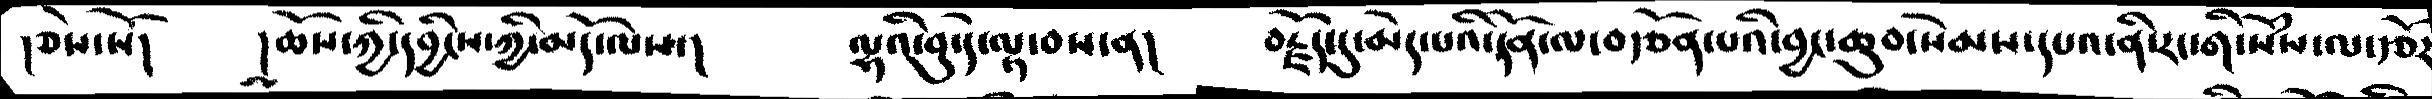།ཅེས་སོ།     །ཆོས་ཀྱི་དབྱིངས་ཀྱི་མདོ་ལས་།     ལྷའི་བུ་དེ་ལྟ་བས་ན།     བརྗོད་དུ་མེད་པའི་དོན་ལ་བརྩོན་པའི་བྱང་ཆུབ་སེམས་དཔའ་ནི་རང་གི་སེཾས་ལ་རྩོར་
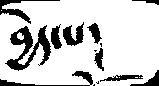བྱེད་པ།
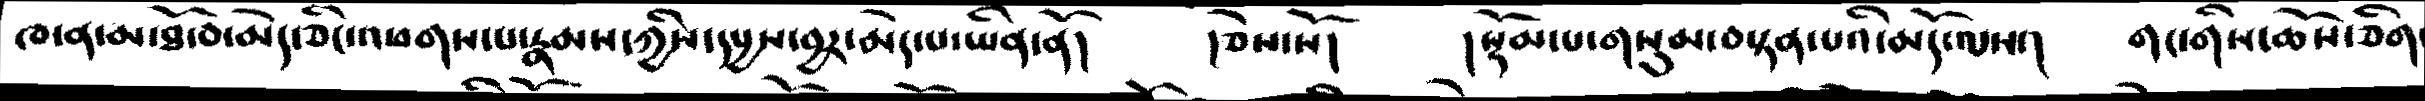ཁ་ན་མ་ཐོ་བ་མེད་ཅིང་འཕགས་པ་རྣམས་ཀྱིས་དཔྱས་བྱར་མེད་པ་ཡིན་ནོ།    །ཅེས་སོ།     །སྡོམ་པ་གསུམ་བསྟན་པའི་མདོ་ལས་།    གང་གིས་ཆོས་ཅིག་
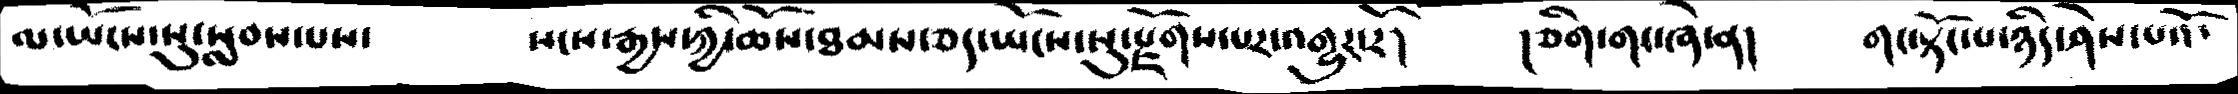ལ་ཡོངས་སུ་སླབས་པས་      སངས་རྒྱས་ཀྱི་ཆོས་ཐམས་ཅད་ཡོངས་སུ་སྫོགས་པར་འགྱུར་རོ།     །ཅིག་གང་ཞེ་ན།     གང་སྟོང་པ་ཉིད་ཤེས་པའོ་
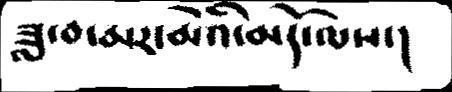ཟླ་བ་མར་མེའི་མདོ་ལས།
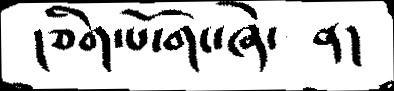།ཅིག་པོ་གང་ཞེ་    ན།
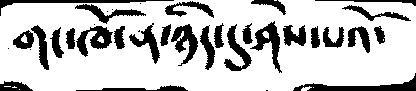གང་ཁོ་ན་ཉིད་དུ་ཤེས་པའོ་
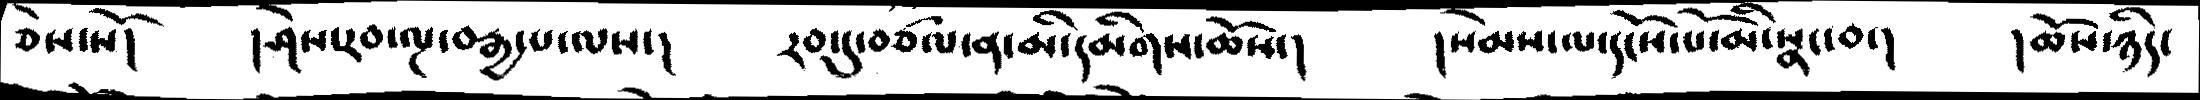ཅེས་སོ།    ། ཤེས་རབ་ལྔ་བརྒྱ་པ་ལས་།      རབ་དུ་བཙལ་ན་མི་དམིགས་ཆོས་།    །སེམས་ལ་དངོས་པོ་མི་སྣང་བ་།    །ཆོས་ཉིད་
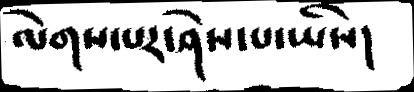ལེགས་པར་ཤེས་པ་ཡིན།
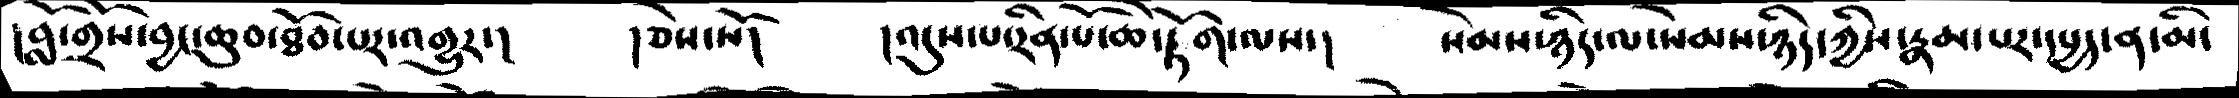།བློ་གྲོས་བྱང་ཆུབ་ཐོབ་པར་འགྱུར་།   །ཅེས་སོ།     །འདུས་པ་རིན་པོ་ཆེ་རྟོག་ལས་།      སེམས་ཉིད་ལ་སེམས་ཀྱིས་རྣམ་པར་དཔྱད་ན་མི་
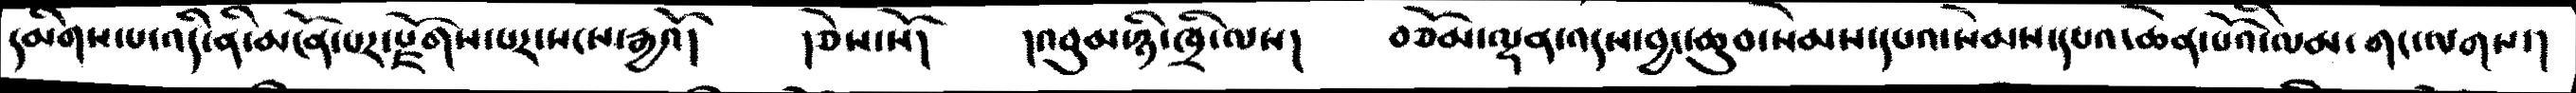དམིགས་པ་འདི་ནི་མངོན་པར་སྫོགས་པར་སངས་རྒྱའོ།  །ཅེས་སོ།     །འབུམ་ཉི་ཁྲི་ལས།    བཅོམ་ལྡན་འདས་བྱང་ཆུབ་སེམས་དཔའ་སེམས་དཔའ་ཆེན་པོའི་ལམ་གང་ལགས་།
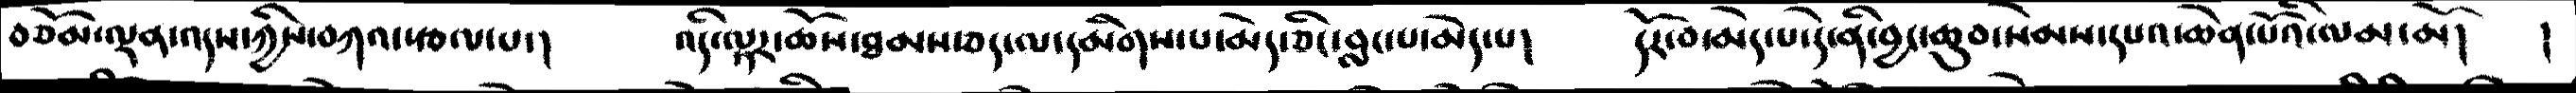བཅོམ་ལྡན་འདས་ཀྱིས་བཀའ་རྩལ་པ་།     འདི་ལྟར་ཆོས་ཐམས་ཅད་ལ་དམིགས་པ་མེད་ཅིང་བླངས་པ་མེད་པ།  དོར་བ་མེད་པ་དེ་ཉིད་བྱང་ཆུབ་སེམས་དཔའ་ཆེན་པོའི་ལམ་མོ།  །
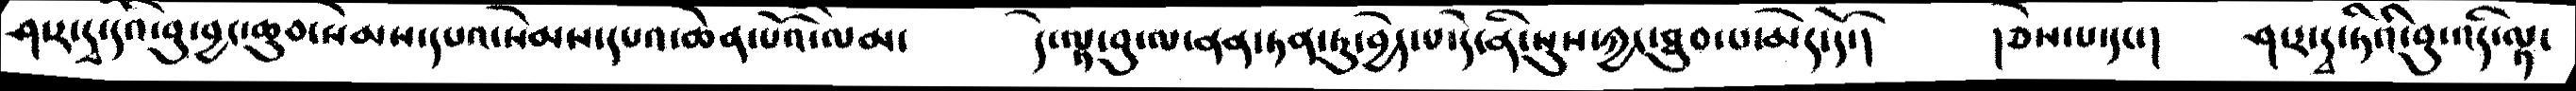ཤ་ར་དྭ་དའི་བུ་བྱང་ཆུབ་སེམས་དཔའ་སེམས་དཔའ་ཆེན་པའོ་ལམ་    དེ་ལྟ་བུ་ལ་ནན་ཏན་ཏུ་བྱེད་པ་དེ་ནི་སུས་ཀྱང་ཐུབ་པ་མེད་དོ་།   །ཅེས་པ་དང་།    ཤ་ར་དྭ་ཏིའི་བུ་འདི་ལྟ་
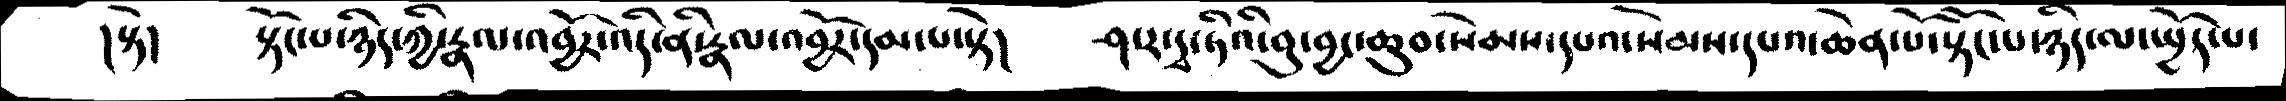།སྟེ།     སྟོང་པ་ཉིད་ཀྱི་རྣལ་འབྱོར་འདི་ནི་རྣལ་འབྱོར་དམ་པ་སྟེ།     ཤ་་་དྭ་ཏིའི་བུ་བྱང་ཆུབ་སེམས་དཔའ་སེམས་དཔའ་ཆེན་པོ་སྟོང་པ་ཉིད་ལ་ཡྱོད་པ་
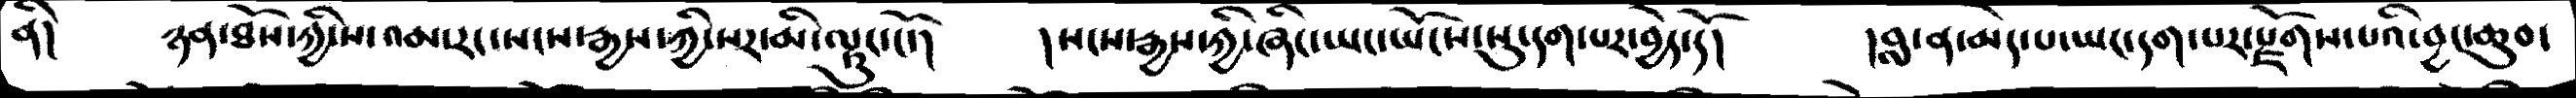ནི།    ཉན་ཐོས་ཀྱི་ས་འམ་རང་སངས་རྒྱས་ཀྱི་སར་མི་ལྟུང་ངོ་།    །སངས་རྒྱས་ཀྱི་ཞིང་ཡང་ཡོངས་སུ་དག་པར་བྱེད་དོ།    །བླ་ན་མེད་པ་ཡང་དག་པར་སྫོགས་པའི་བྱང་ཆུབ་
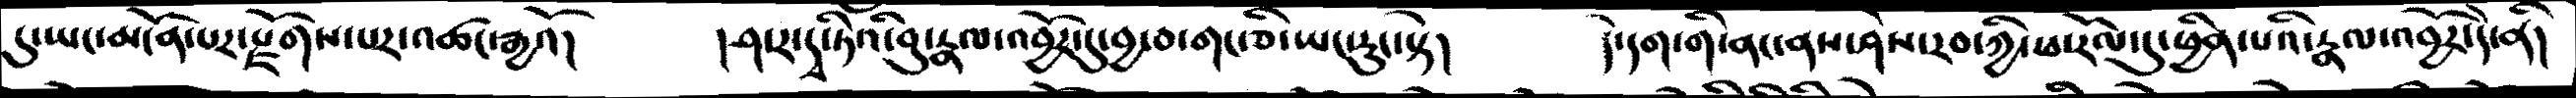དུ་ཡང་མངོན་པར་སྫོགས་པར་འཚང་རྒྱའོ།     །ཤ་ར་དྭ་ཏིའི་བུ་རྣལ་འབྱོར་དུ་བྱ་བ་གང་ཅི་ཡང་རུང་སྟེ།     དེ་དག་གི་ནང་ནས་ཤེས་རབ་ཀྱི་ཕ་རོལ་དུ་ཕྱིན་པའི་རྣལ་འབྱོར་དེ་ནི།
